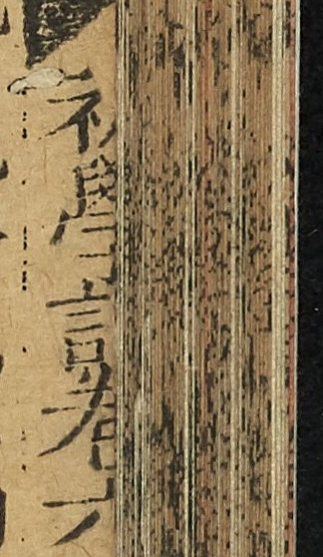初學記卷六
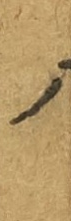八
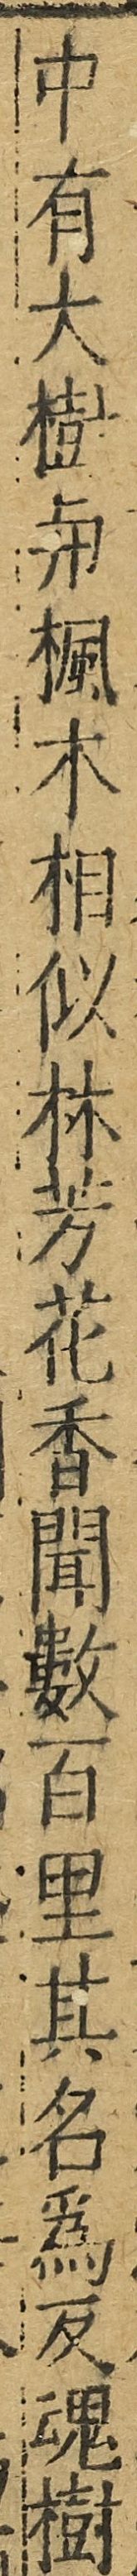中有大樹與楓木相似林芳花香聞數百里其名為反魂樹
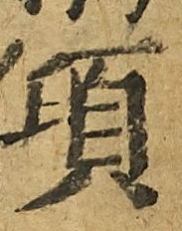傾
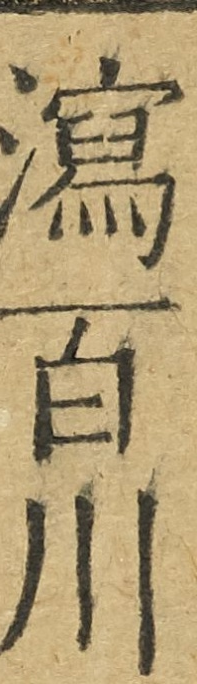瀉百川
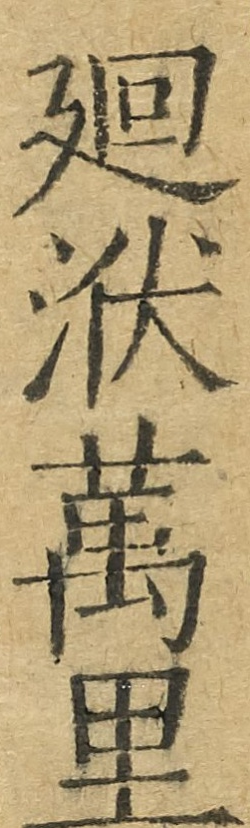廻洑萬里
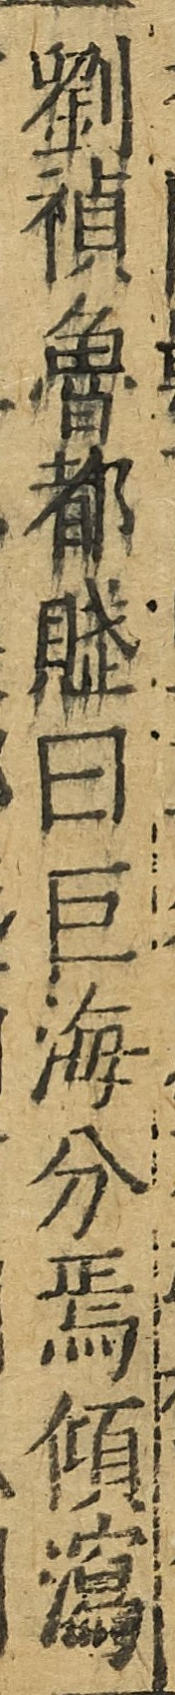劉禎魯都賦曰巨海分焉傾瀉
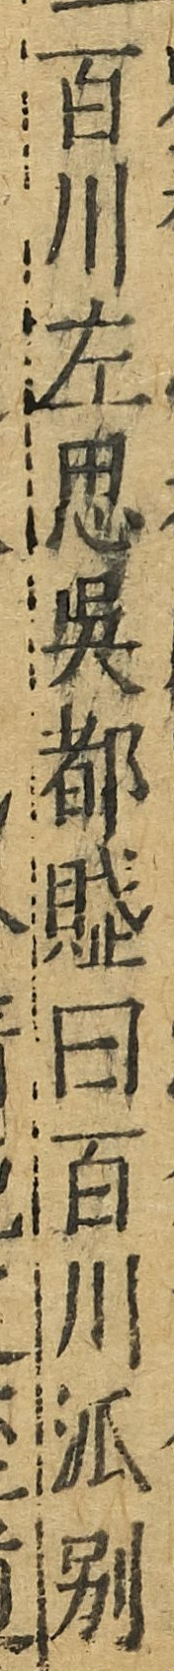百川左思吳都賦曰百川派別
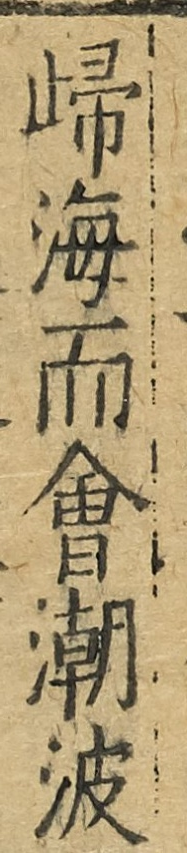㱕海而會潮波
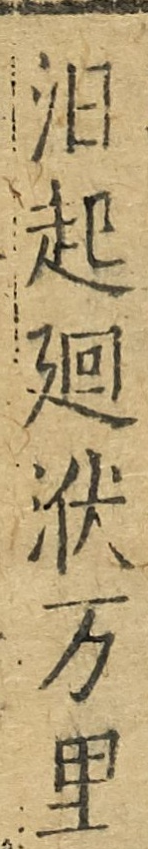汨起廻洑萬里
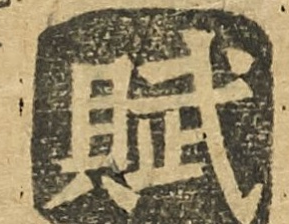賦
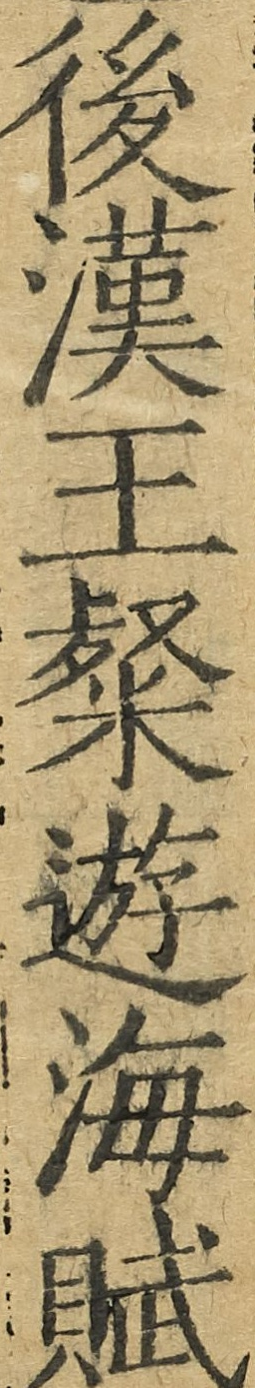後漢王粲遊海賦
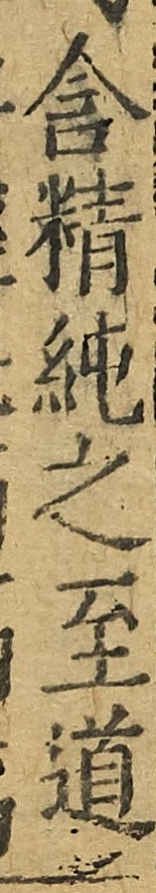含精純之至道
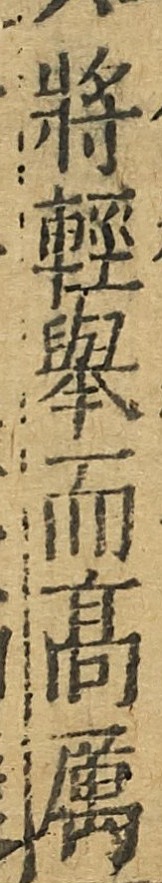將輕舉而高厲
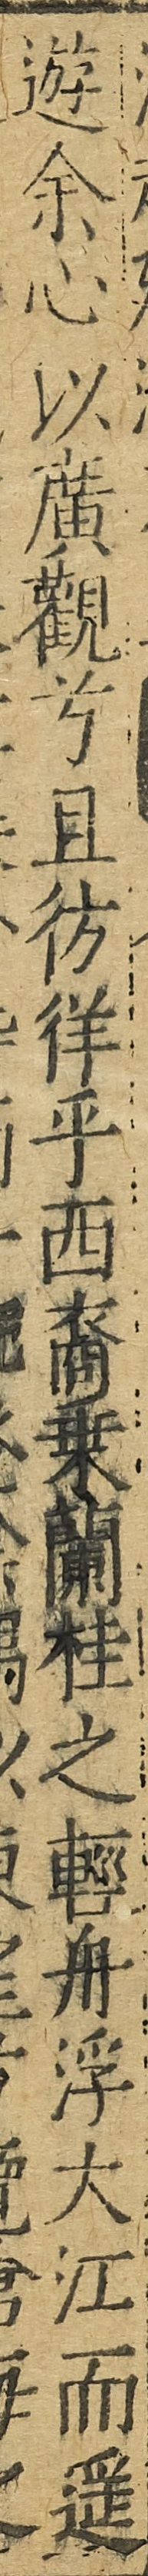游余心以廣觀兮且彷徉乎西裔乘蘭桂之輕舟浮大江而遙
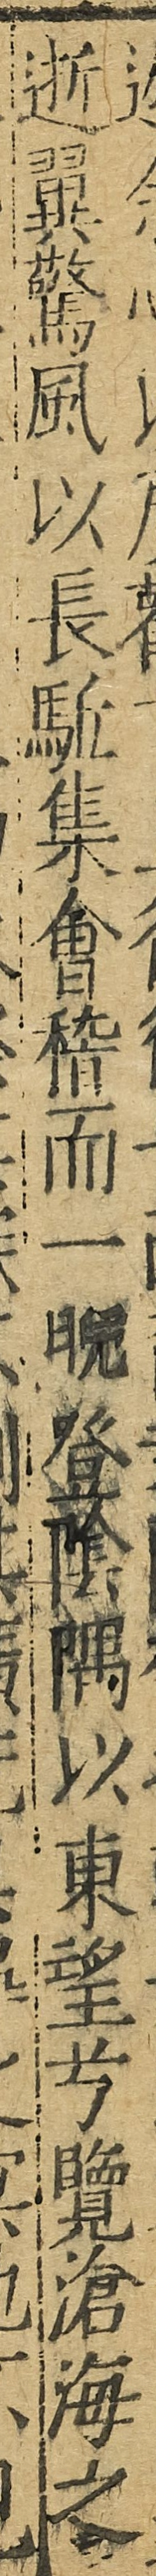逝翼驚風以長駈集會稽而一睨登陰隅以東望兮覽滄海之
